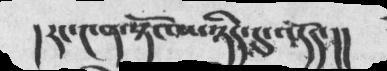།རང་༤ན་སྟོང་པ་ཉིད་དུ་འདོད་།།
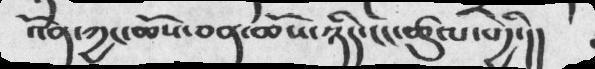འོན་ཀྱང་ཆོས་ཅན་ཆོས་ཉིད་ངང་ཚུལ་གྱི་།།
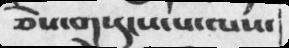ཅེས་གསུངས་པ་ལས་
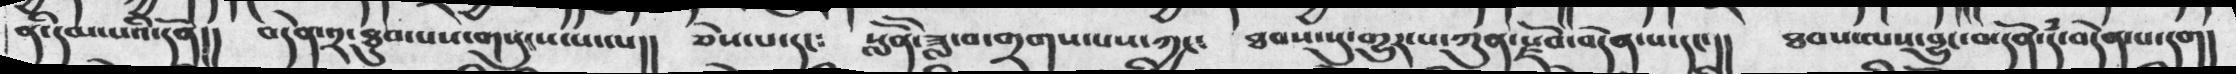ནི་དམ་པའི་དོན།། བདེན་༢་ཐུབ་པས་གསུངས་པ་ལ།། ཅེས་པ་དང༴ སློོན་ཟླ་བ་གྲགས་པས་ཀྱང༴ ཐབས་སུ་གྱུར་པ་ཀུན་སཛོབ་བདེན་པ་དང་།། ཐབས་ལས་བྱུང་བ་དོན་དཾ་བདེན་པ་དག།
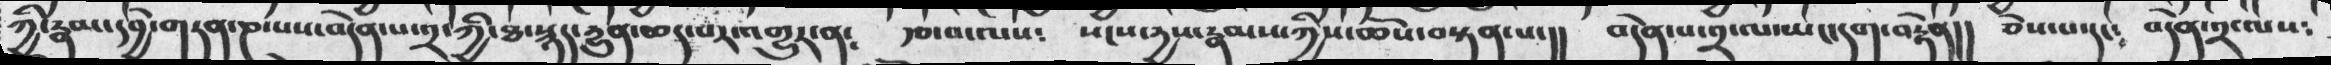ཀྱི་རྣམ་དབྱེ་གཏན་ཎ་པས་བདེན་པ་༢་ཀྱི་ཐ་སྙད་དྱུན་ཆད་པར་འགྱུར་ན༴  རྩ་བ་ལས༴  སངས་དྱས་རྣམས་ཀྱིས་ཆོས་བསྟན་པ་།། བདེན་པ་༢་ལ་ཡང་དག་བརྟེན།། ཅེས་པ་དང༴ བདེན་༢་ལས༴
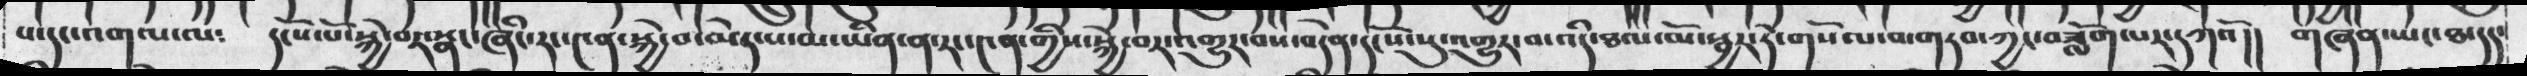པ་དང་འགལ་ལ༴ དངོས་པོ་སྐྱེ་བར་སྣང་ཞིང་རང་༤ན་སྐྱེ་བ་མེད་པ་མ་ཡིན་ན་རང་༤ན་གྱིས་སྐྱེ་བར་འགྱུར་བས་བདེན་དངོས་སུ་འགྱུར་བ་འདི་ཐལ་མོ་སྦྱར་ཏེ་གསོལ་བ་གཏབ་ཀྱང་བཟློག་པར་དཀའོ།། གཞན་ཡང་ཐ་དད་
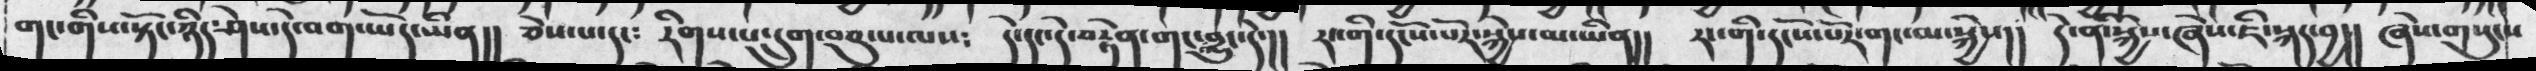གང་གིས་སྟོང་ཉིད་ཤེས་དེ་བག་ཡོད་ཡིན།། ཅེས་པ་དང༴ རིགས་པ་དྲུག་བཅུ་པ་ལས༴ དེ་དང་དེ་བརྟེན་གང་བྱུང་དེ་།། རང་གི་དངོས་པོར་སྐྱེས་མ་ཡིན།། རང་གི་དངོས་པོར་གང་མ་སྐྱེད།། དེ་ནི་སྐྱེས་ཞེས་ཇི་སྐད་བྱ།། ཞེས་གསུངས
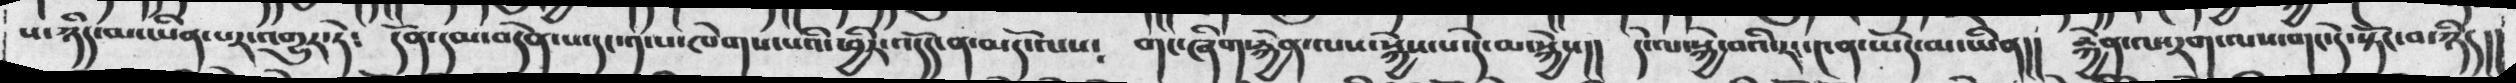ས་ཉིད་མ་ཡིན་པར་འགྱུར་ཏེ༴ དོན་དམ་བདེན་པ་དང་༡་པ་ཁེགས་པའི་ཕྱིར་འདོད་ན་མདོ་ལས༴ གང་ཞིག་རྐྱེན་ལས་སྐྱེས་པ་དེ་མ་སྐྱེས།། དེ་ལ་སྐྱེ་བའི་རང་༤ན་ཡོད་མ་ཡིན།། རྐྱེན་ལ་རག་ལས་གང་དེ་སྟོང་བ་ཉིད།།
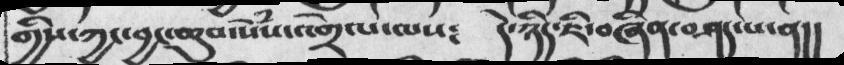གྱིས་ཀྱང་བྱང་ཆུབ་སེཾས་འགྲེལ་ལས༴ དེ་ཉིད་ཇི་བཞིན་བཤད་པ་ན།།
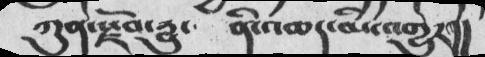ཀུན་སྫོབ་དྱུ་ ནི་འཆད་མི་འགྱུར།།
